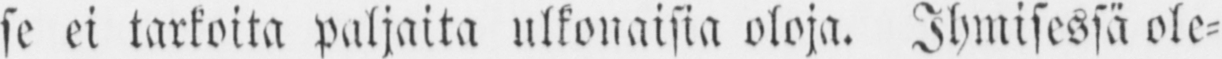se ei tarkoita paljaita ulkonaisia oloja. Ihmisessä ole-
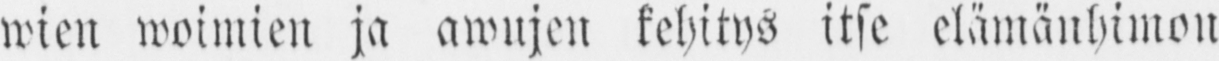wien woimien ja awujen kehitys itse elämänhimon
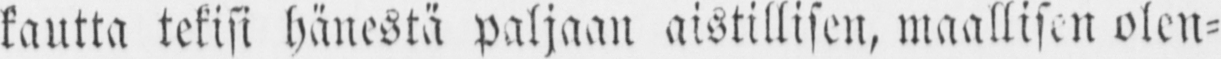kautta tekisi hänestä paljaan aistillisen, maallisen olen-
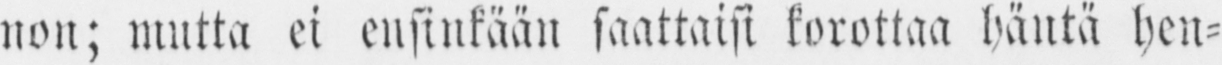non; mutta ei ensinkään saattaisi korottaa häntä hen-
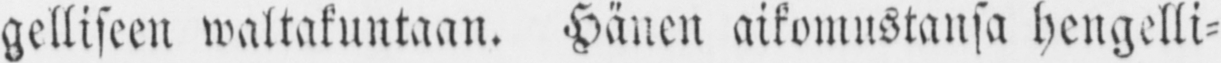gelliseen waltakuntaan. Hänen aikomustansa hengelli-
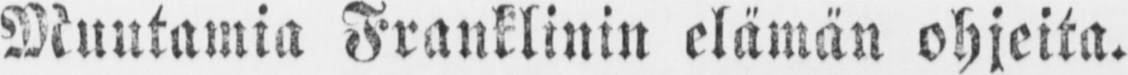Muutamia Franklinin elämän ohjeita.
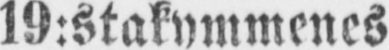19:stakymmenes
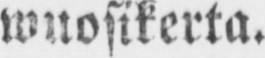wuosikerta.
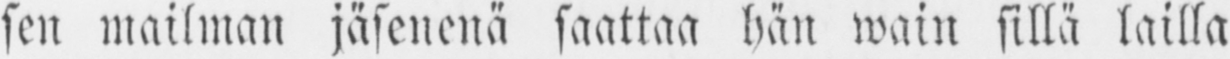sen mailman jäsenenä saattaa hän wain sillä lailla
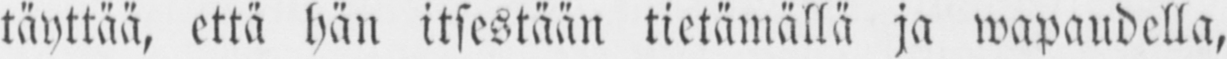täyttää, että hän itsestään tietämällä ja wapaudella,
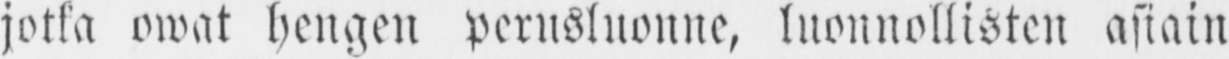jotka owat hengen perusluonne, luonnollisten asiain
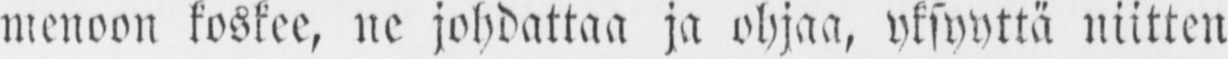menoon koskee, ne johdattaa ja ohjaa, yksyyttä niitten
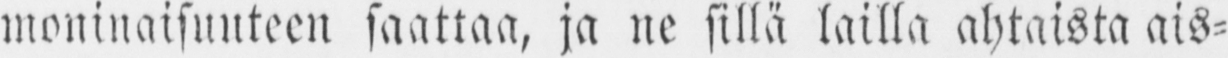moninaisuuteen saattaa, ja ne sillä lailla ahtaista ais-
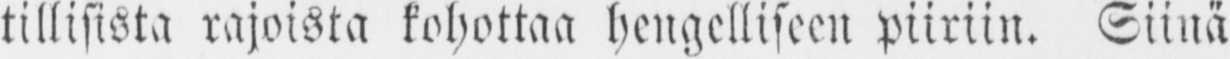tillisista rajoista kohottaa hengelliseen piiriin. Siinä
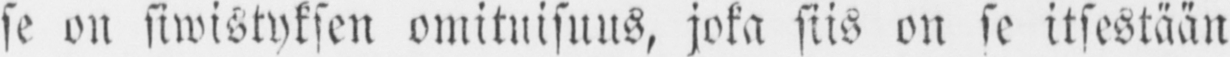se on siwistyksen omituisuus, joka siis on se itsestään
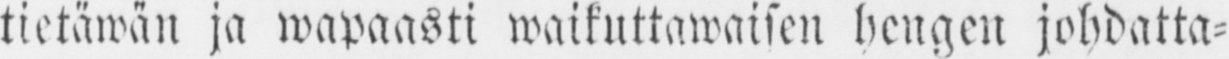tietäwän ja wapaasti waikuttawaisen hengen johdatta-
